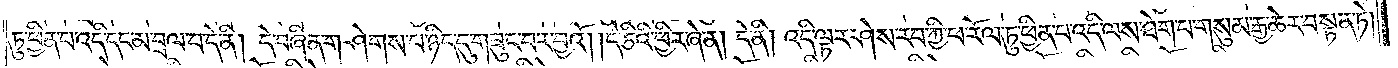ཏུ་ཕྱིན་པ་འདི་དང་མ་བྲལ་བ་དེ་ནི། དེ་བཞིན་གཤེགས་པ་ཉིད་དུ་གཟུང་བར་བྱའོ། །དེ་ཅིའི་ཕྱིར་ཞེ་ན། དེ་ནི། འདི་ལྟར་ཤེས་རབ་ཀྱི་ཕ་རོལ་ཏུ་ཕྱིན་པ་འདི་ལས་ཐེག་པ་གསུམ་རྒྱ་ཆེར་བསྟན་ཏེ་
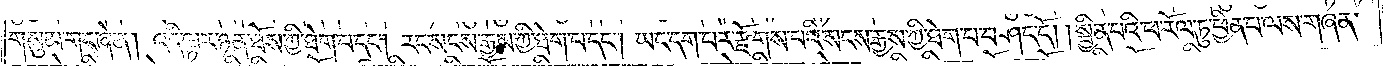གསུམ་གང་ཞེ་ན། འདི་ལྟར་ཉན་ཐོས་ཀྱི་ཐེག་པ་དང༌། རང་སངས་རྒྱས་ཀྱི་ཐེག་པ་དང༌། ཡང་དག་པར་རྫོགས་པའི་སངས་རྒྱས་ཀྱི་ཐེག་པ་བཤད་དོ། །སྦྱིན་པའི་ཕ་རོལ་ཏུ་ཕྱིན་པ་ལས་གཞན་
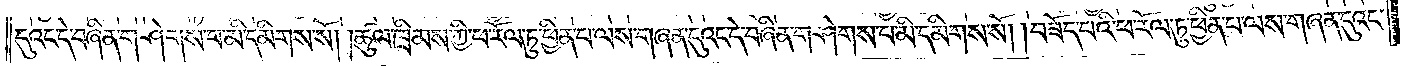དུའང་དེ་བཞིན་གཤེགས་པ་མི་དམིགས་སོ། །ཚུལ་ཁྲིམས་ཀྱི་ཕ་རོལ་ཏུ་ཕྱིན་པ་ལས་གཞན་དུའང་དེ་བཞིན་གཤེགས་པ་མི་དམིགས་སོ། །བཟོད་པའི་ཕ་རོལ་ཏུ་ཕྱིན་པ་ལས་གཞན་དུའང་
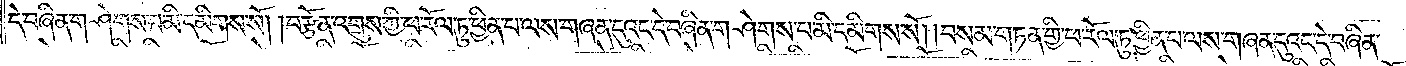དེ་བཞིན་གཤེགས་པ་མི་དམིགས་སོ༎ བརྩོན་འགྲུས་ཀྱི་ཕ་རོལ་ཏུ་ཕྱིན་པ་ལས་གཞན་དུའང་དེ་བཞིན་གཤེགས་པ་མི་དམིགས་སོ། །བསམ་གཏན་གྱི་ཕ་རོལ་ཏུ་ཕྱིན་པ་ལས་གཞན་དུའང་དེ་བཞིན་
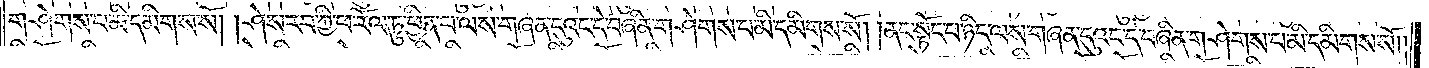གཤེགས་པ་མི་དམིགས་སོ། །ཤེས་རབ་ཀྱི་ཕ་རོལ་ཏུ་ཕྱིན་པ་ལས་གཞན་དུའང་དེ་བཞིན་གཤེགས་པ་མི་དམིགས་སོ། །ནང་སྟོང་པ་ཉིད་ལས་གཞན་དུའང་དེ་བཞིན་གཤེགས་པ་མི་དམིགས་སོ༎
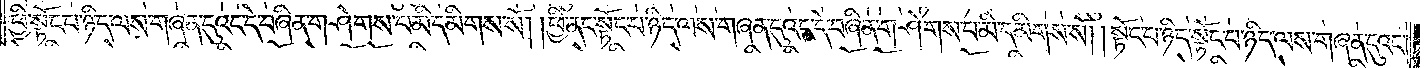ཕྱི་སྟོང་པ་ཉིད་ལས་གཞན་དུའང་དེ་བཞིན་གཤེགས་པ་མི་དམིགས་སོ། །ཕྱི་ནང་སྟོང་པ་ཉིད་ལས་གཞན་དུའང་དེ་བཞིན་གཤེགས་པ་མི་དམིགས་སོ། །སྟོང་པ་ཉིད་སྟོང་པ་ཉིད་ལས་གཞན་དུའང་
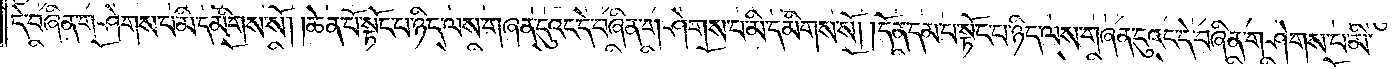དེ་བཞིན་གཤེགས་པ་མི་དམིགས་སོ། །ཆེན་པོ་སྟོང་པ་ཉིད་ལས་གཞན་དུའང་དེ་བཞིན་གཤེགས་པ་མི་དམིགས་སོ། །དོན་དམ་པ་སྟོང་པ་ཉིད་ལས་གཞན་དུའང་དེ་བཞིན་གཤེགས་པ་མི་
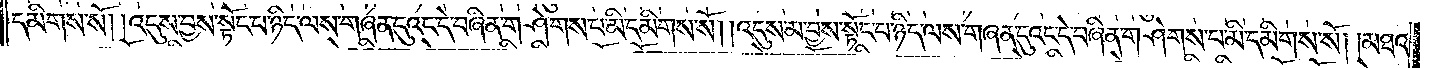དམིགས་སོ། །འདུས་བྱས་སྟོང་པ་ཉིད་ལས་གཞན་དུའང་དེ་བཞིན་གཤེགས་པ་མི་དམིགས་སོ། །འདུས་མ་བྱས་སྟོང་པ་ཉིད་ལས་གཞན་དུའང་དེ་བཞིན་གཤེགས་པ་མི་དམིགས་སོ། །མཐའ་
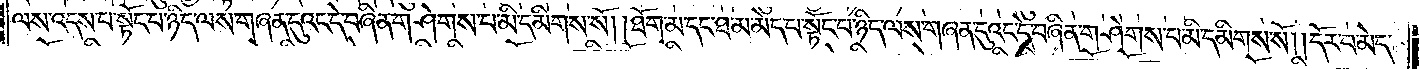ལས་འདས་པ་སྟོང་པ་ཉིད་ལས་གཞན་དུའང་དེ་བཞིན་གཤེགས་པ་མི་དམིགས་སོ། །ཐོག་མ་དང་ཐ་མ་མེད་པ་སྟོང་པ་ཉིད་ལས་གཞན་དུའང་དེ་བཞིན་གཤེགས་པ་མི་དམིགས་སོ༎ དོར་བ་མེད་
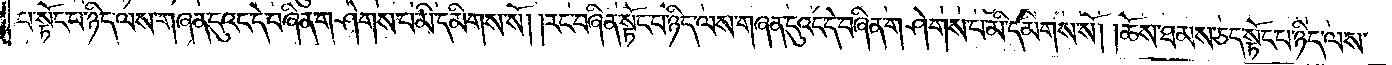པ་སྟོང་པ་ཉིད་ལས་གཞན་དུའང་དེ་བཞིན་གཤེགས་པ་མི་དམིགས་སོ། །རང་བཞིན་སྟོང་པ་ཉིད་ལས་གཞན་དུའང་དེ་བཞིན་གཤེགས་པ་མི་དམིགས་སོ། །ཆོས་ཐམས་ཅད་སྟོང་པ་ཉིད་ལས་
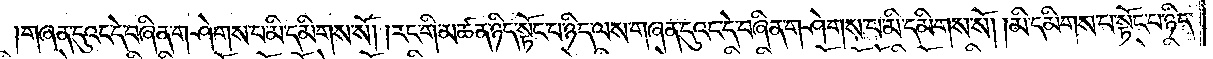གཞན་དུའང་དེ་བཞིན་གཤེགས་པ་མི་དམིགས་སོ། །རང་གི་མཚན་ཉིད་སྟོང་པ་ཉིད་ལས་གཞན་དུའང་དེ་བཞིན་གཤེགས་པ་མི་དམིགས་སོ། །མི་དམིགས་པ་སྟོང་པ་ཉིད་
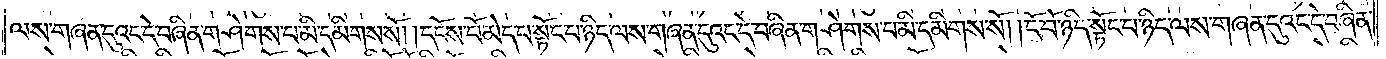ལས་གཞན་དུའང་དེ་བཞིན་གཤེགས་པ་མི་དམིགས་སོ། །དངོས་པོ་མེད་པ་སྟོང་པ་ཉིད་ལས་གཞན་དུའང་དེ་བཞིན་གཤེགས་པ་མི་དམིགས་སོ། །ངོ་བོ་ཉིད་སྟོང་པ་ཉིད་ལས་གཞན་དུའང་དེ་བཞིན་
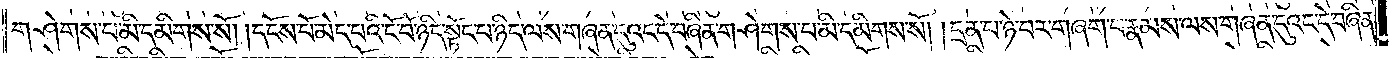གཤེགས་པ་མི་དམིགས་སོ། །དངོས་པོ་མེད་པའི་ངོ་བོ་ཉིད་སྟོང་པ་ཉིད་ལས་གཞན་དུའང་དེ་བཞིན་གཤེགས་པ་མི་དམིགས་སོ། །དྲན་པ་ཉེ་བར་གཞག་པ་རྣམས་ལས་གཞན་དུའང་དེ་བཞིན་
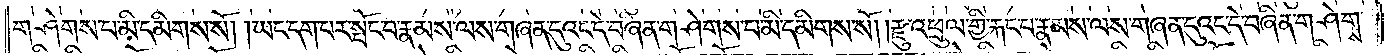གཤེགས་པ་མི་དམིགས་སོ། །ཡང་དག་པར་སྤོང་བ་རྣམས་ལས་གཞན་དུའང་དེ་བཞིན་གཤེགས་པ་མི་དམིགས་སོ། །རྫུ་འཕྲུལ་གྱི་རྐང་པ་རྣམས་ལས་གཞན་དུའང་དེ་བཞིན་གཤེགས་
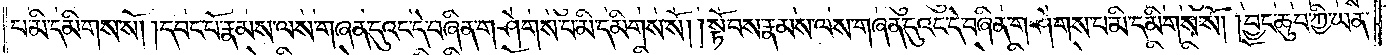པ་མི་དམིགས་སོ། །དབང་པོ་རྣམས་ལས་གཞན་དུའང་དེ་བཞིན་གཤེགས་པ་མི་དམིགས་སོ། །སྟོབས་རྣམས་ལས་གཞན་དུའང་དེ་བཞིན་གཤེགས་པ་མི་དམིགས་སོ། །བྱང་ཆུབ་ཀྱི་ཡན་
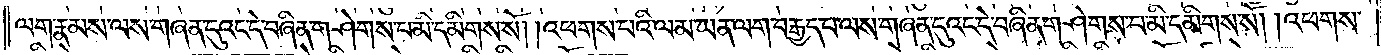ལག་རྣམས་ལས་གཞན་དུའང་དེ་བཞིན་གཤེགས་པ་མི་དམིགས་སོ། །འཕགས་པའི་ལམ་ཡན་ལག་བརྒྱད་པ་ལས་གཞན་དུའང་དེ་བཞིན་གཤེགས་པ་མི་དམིགས་སོ། །འཕགས་
